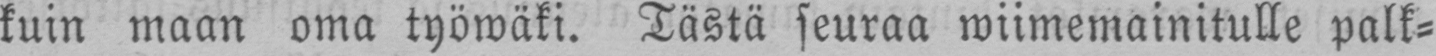kuin maan oma työwäki. Tästä seuraa wiimemainitulle palk-
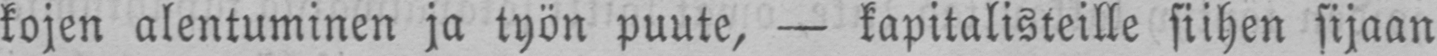kojen alentuminen ja työn puute, — kapitalisteille siihen sijaan
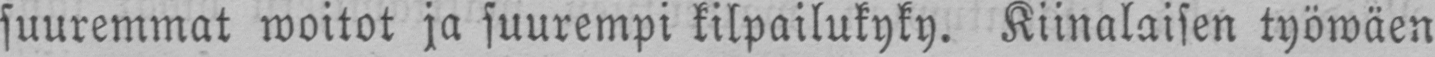suuremmat woitot ja suurempi kilpailukyky. Kiinalaisen työwäen
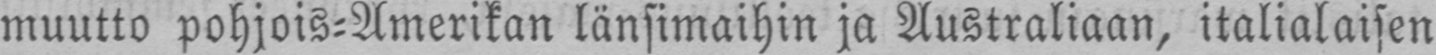muutto pohjois-Amerikan länsimaihin ja Australiaan, italialaisen
